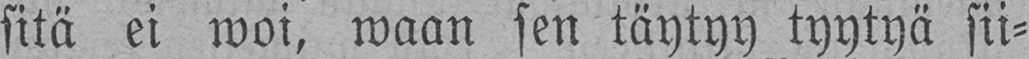sitä ei woi, waan sen täytyy tyytyä sii-
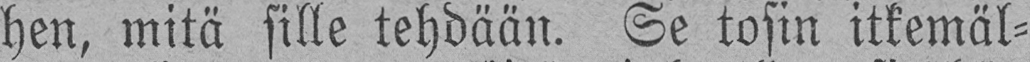hen, mitä sille tehdään. Se tosin itkemäl-
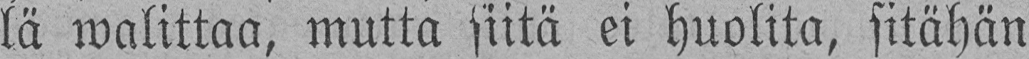lä walittaa, mutta siitä ei huolita, sitähän
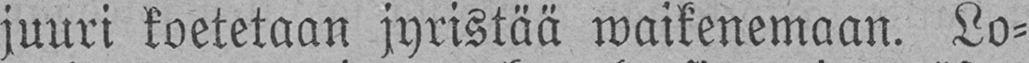juuri koetetaan jyristää waikenemaan. Lo-
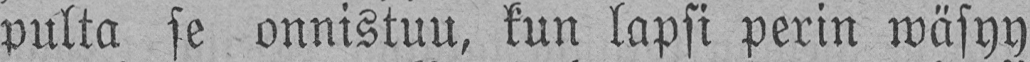pulta se onnistuu, kun lapsi perin wäsyy
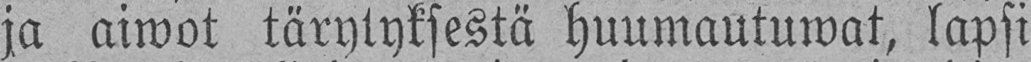ja aiwot tärytyksestä huumautuwat, lapsi
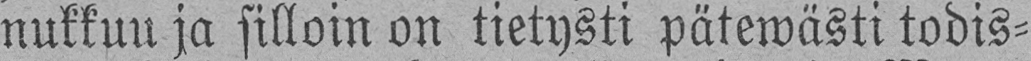nukkuu ja silloin on tietysti pätewästä todis-
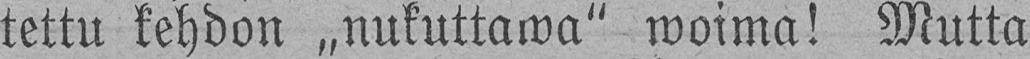tettu kehdon „nukuttawa" woima! Mutta
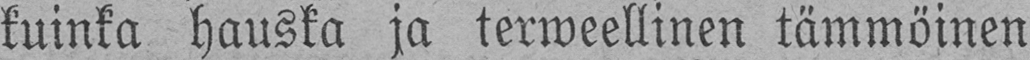kuinka hauska ja terweellinen tämmöinen
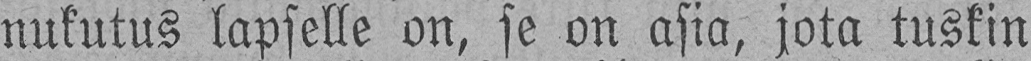nukutus lapselle on, se on asia, jota tuskin
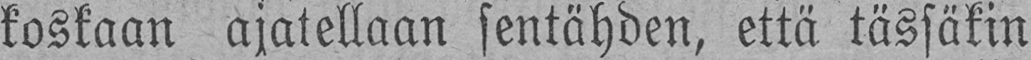koskaan ajatellaan sentähden, että tässäkin
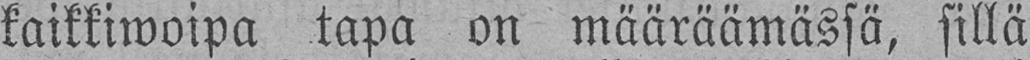kaikkiwoipa tapa on määräämässä, sillä
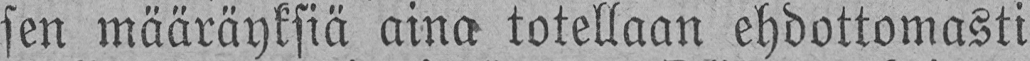sen määräyksiä aina totellaan ehdottomasti
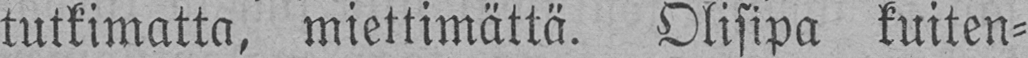tutkimatta, miettimättä. Olisipa kuiten-
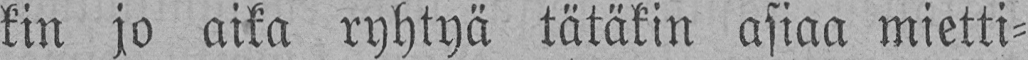kin jo aika ryhtyä tätäkin asiaa mietti-
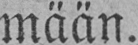mään.
